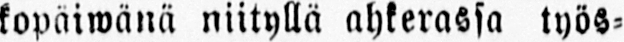kopäiwänä niityllä ahkerassa työs-
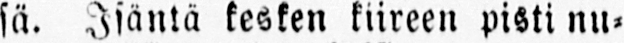sä. Isäntä kesken kiireen pisti nu-
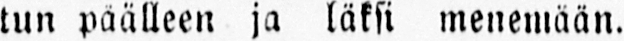tun päälleen ja läksi menemään.
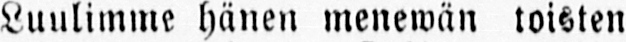Luulimme hänen menewän toisten
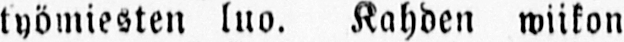työmiesten luo. Kahden wiikon
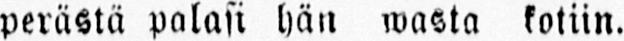perästä palasi hän wasta kotiin,
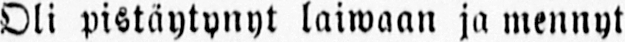Oli pistäytynyt laiwaan ja mennyt
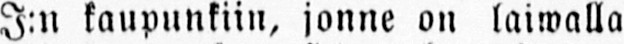J:n kaupunkiin, jonne on laiwalla
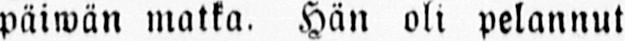päiwän matka. Hän oli pelannut
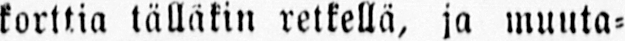korttia tälläkin retkellä, ja muuta-
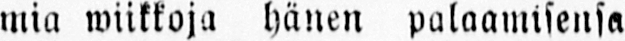mia wiikkoja hänen palaamisensa
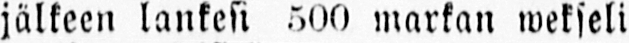jälkeen lankesi 500 markan wekseli
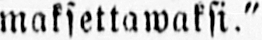maksettawaksi."
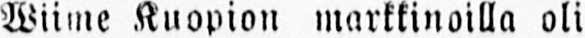Wiime Kuopion markkinoilla oli
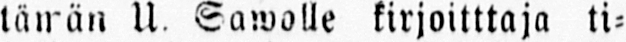tämän U. Sawolle kirjoitttaja ti-
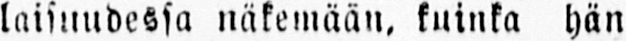laisuudessa näkemään, kuinka hän
